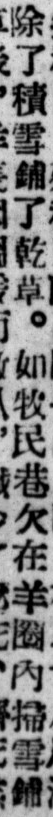除了積雪鋪了乾草。如牧民巷欠在羊圈內掃雪鋪
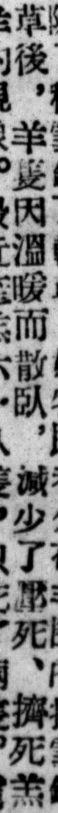草後，羊隻因溫暖而散臥，減少了壓死、擠死羔
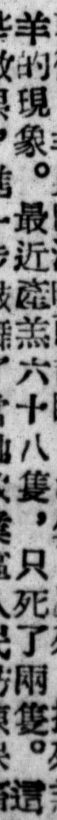羊的現象。最近產羔六十八隻，只死了兩隻。這
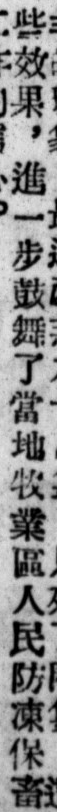些效果，進一步鼓舞了當地牧業區人民防凍保畜
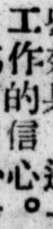工作的信心。
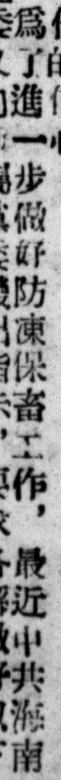爲了進一步做好防凍保畜工作，最近中共海南
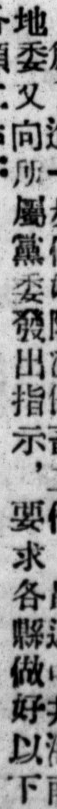地委又向所屬黨委發出指示，要求各縣做好以下
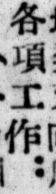各項工作：
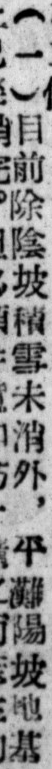（一）目前除陰坡積雪未消外，平灘陽坡也基
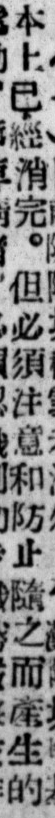本上已經消完。但必須注意和防止隨之而產生的
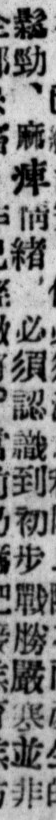鬆動、麻痹情緒，必須認識到初步戰勝嚴寒並非
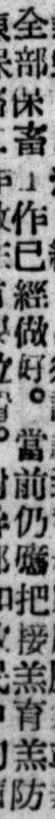全部保畜工作已經做好。當前仍應把接羔育羔防
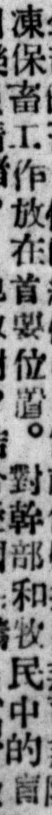凍保畜工作放在首要位置。對幹部和牧民中的盲
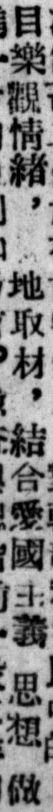目樂觀情緒，就地取材，結合愛國主義 思想 做
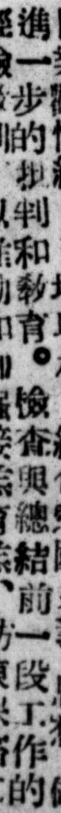進一步的批判和敎育。檢查與總結前一段工作的
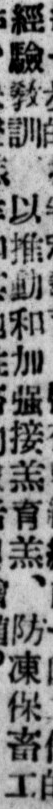經驗敎訓，以推動和加強接羔育羔、防凍保畜工
